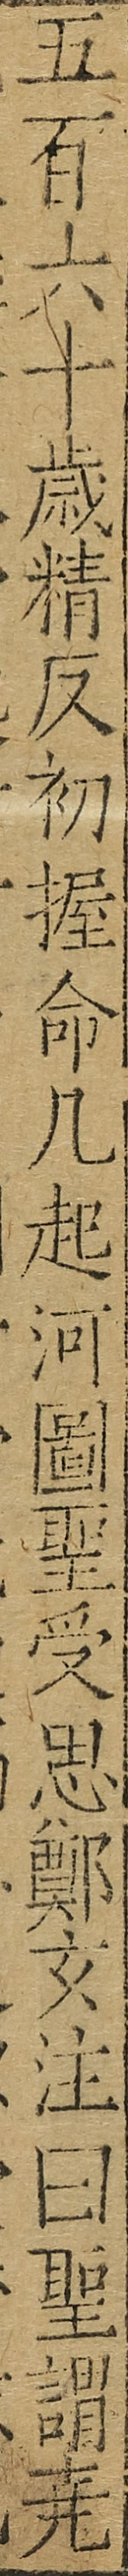五百六十歲精反初握命几起河圖聖受思鄭玄注曰聖謂堯
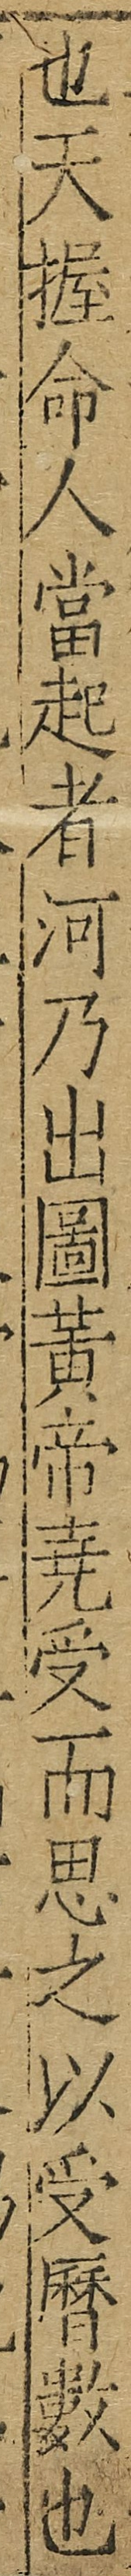也天握命人當起者河乃出圖黃帝堯受而思之以受曆數也
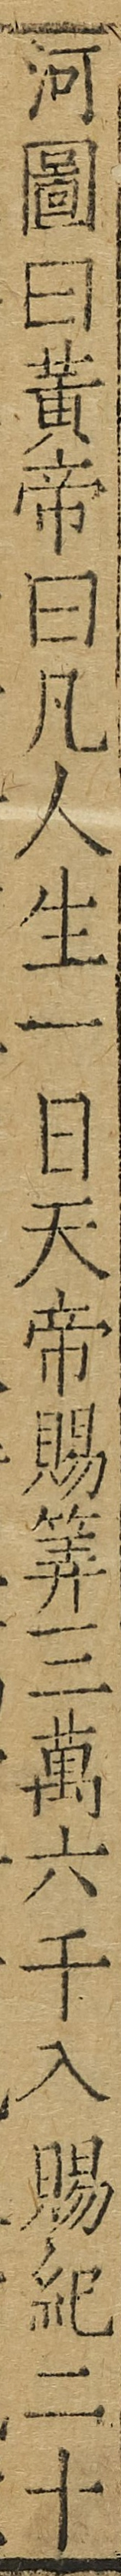河圖曰黃帝曰凡人生一日天帝賜算三萬六千入賜紀二十
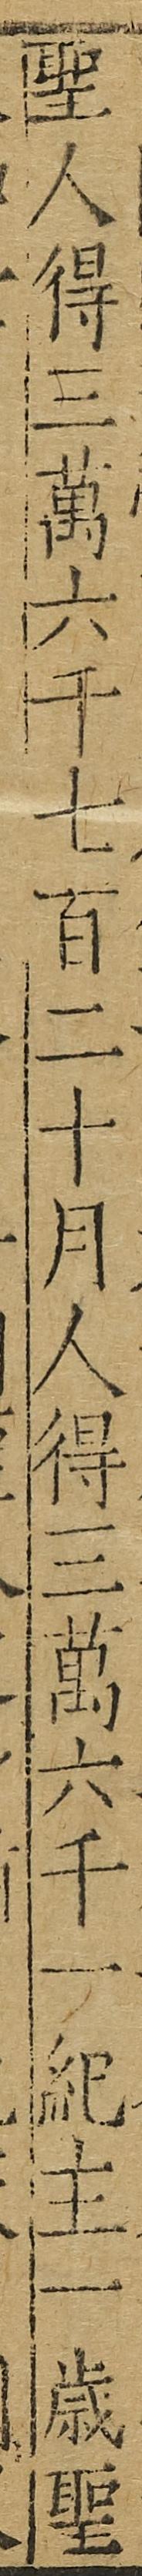聖人得三萬六千七百二十月人得三萬六千一紀主一歲聖
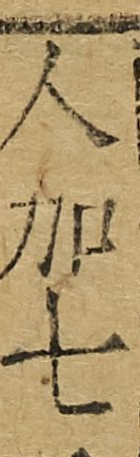人加七
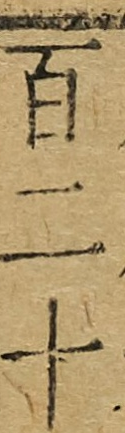百二十
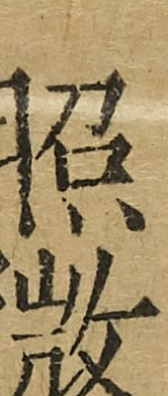照微
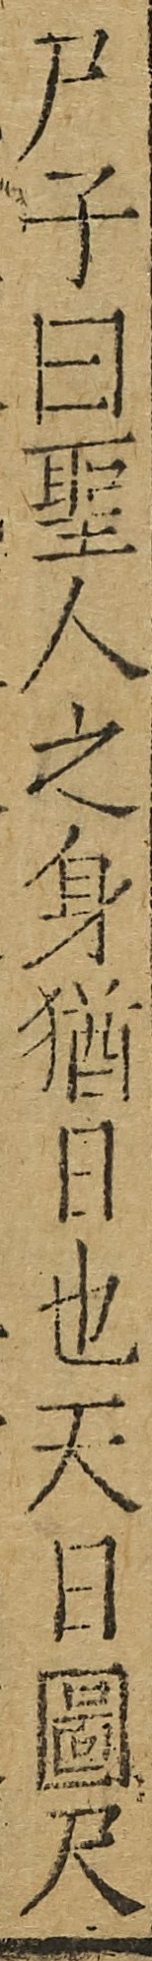屍子曰聖人之身猶日也天日圜尺
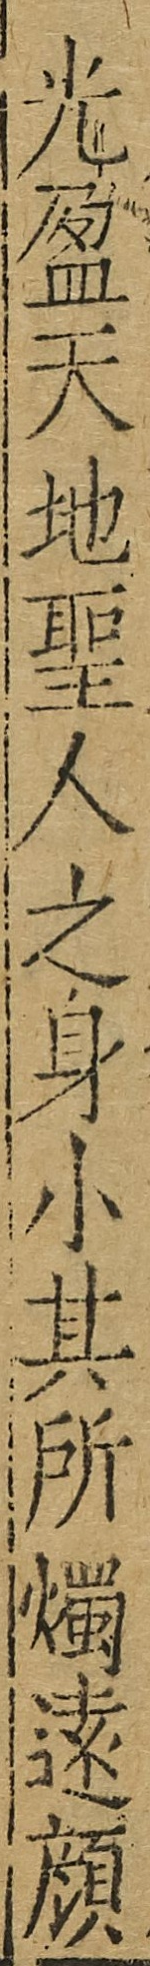光盈天地聖人之身小其所燭遠顏
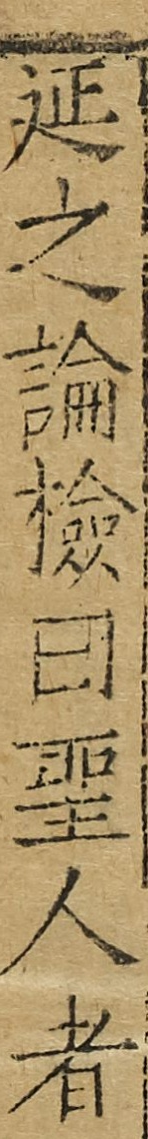延之論檢曰聖人者
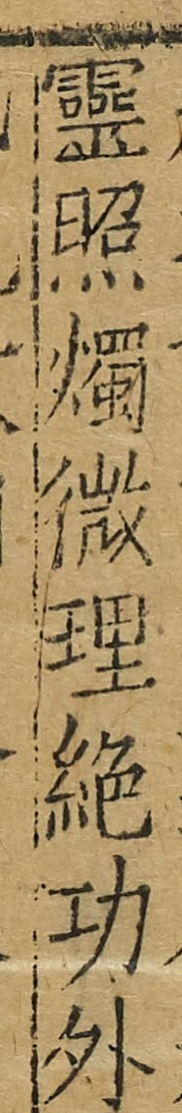靈照燭微理絕功外
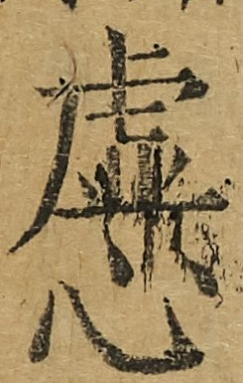虛心
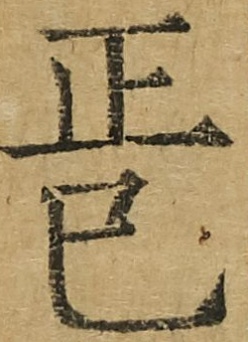正己
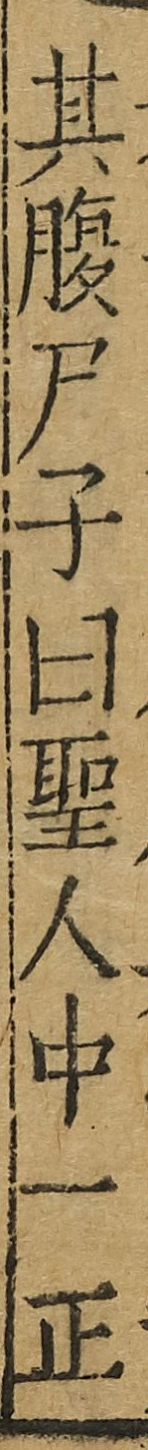其腹屍子曰聖人中一正
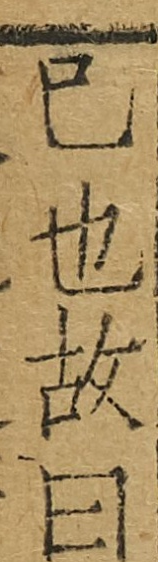己也故曰
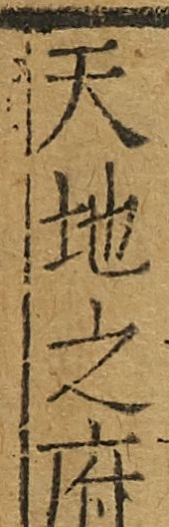天地之府
